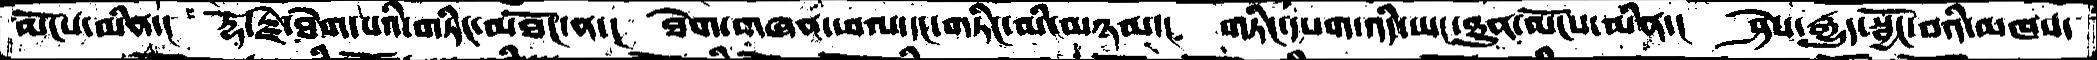མོངས་མིན་།  རྡོ་རྗེ་ཐེག་པའི་གཏིང་མཐོང་ན་།  ཐེག་གཞན་ཕལ་དང་གཏིང་མི་མཉམ་།  གཏིང་དཔག་འདི་ཡང་ཐུན་མོངས་མིན་།  ཤེས་རྒྱུད་སྦྱོང་བའི་མཁས་
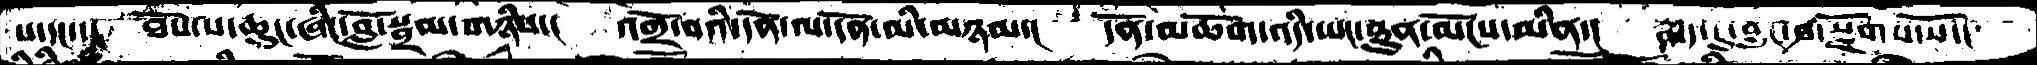པ་དང་་།  ཐོས་པ་ཆུང་ཞིང་བློ་སྦྲམ་གཉིས་།  འགྲོ་བའི་དོན་ལ་དོན་མི་མཉམ་།  དོན་མཆོག་འདི་ཡང་ཐུན་མོངས་མིན་།  རྨད་དུ་བྱུང་བ་སྫོགས་སོ་།
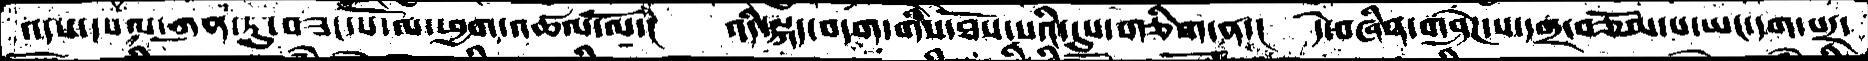འདས་དཔལ་ཀུན་ཏུ་བཟང་པོ་ལ་ཕྱག་འཚལ་ལོ་།  འདི་སྐད་བདག་གིས་ཐོས་པའི་དུས་གཅིག་ན་། དེ་བཞིན་གཤེགས་པ་དགྲ་བཅོམ་པ་ཡང་དག་པར་
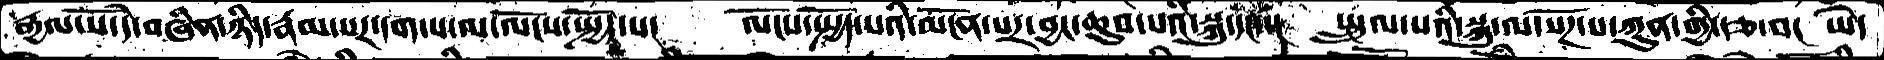རྒྱལ་པོ་དེ་བཞིན་ཉིད་རྣམ་པར་དག་པ་ལ་ལོངས་སྤྱོད་པ།  ལོངས་སྤྱོད་པའི་མངོན་པར་བྱང་ཆུབ་པའི་སྐུ་དང་་།  སྤྲུལ་པའི་སྐུ་ལ་སོཌ་པ་ཀུན་གྱི་རྩ་བ་།  ཡེ་
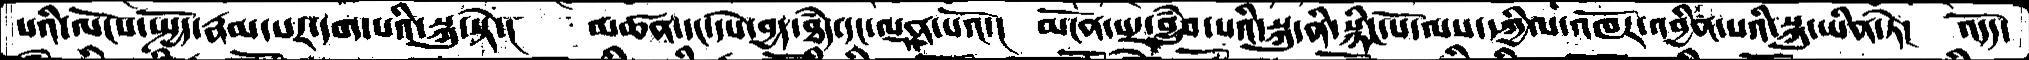པའི་ལོངས་སྤྱོད་རྣམ་པར་དག་པའི་སྐུ་སྟེ་།  མཚན་དང་དཔེ་བྱད་ཐཾད་དང་ལྡན་པའོ་།  མངོན་པར་བྱུཾབ་པའི་སྐུ་ནི་སྙིང་པོ་ལས་དཀྱིལ་འཁོར་འབྱིན་པའི་སྐུ་ཡིན་ཏེ་།  འདོད་
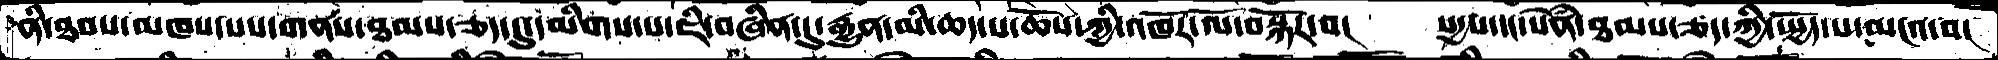ནི་ཐབས་མཁས་པས་གནས་ཐམས་ཅད་དུ་དམིགས་པ་ཇི་བཞིན་དུ་རྒྱུན་མི་ཆད་པ་ཆོས་ཀྱི་འཁོར་ལོ་བསྐོར་བ་།  སདྱས་དང་སེཾན་ཐམས་ཅད་ཀྱི་སྤྱོད་པ་མངའ་བ།
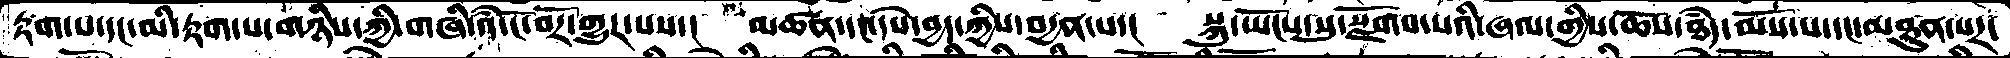རྟག་པ་དང་མི་རྟག་པ་གཉིས་ཀྱི་གཞི་འཾ་ངོ་བོར་གྱུར་པས་།  མཚན་དང་དཔེ་བྱད་ཀྱིས་བདྱན་པ་།  སྐུ་ཡོངས་སུ་སྫོགས་པའི་ཞལ་གྱིས་ཆོས་ཐཾད་མོས་པ་དང་མཐུན་པར་
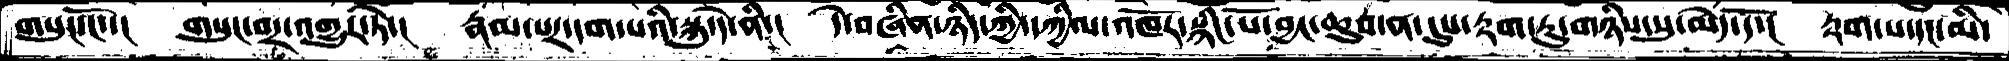གསུང་ངོ་་།  གསུང་བར་འགྱུར་ཏེ་།  རྣམ་པར་དག་པའི་སྐུ་དེ་ནི་  དེ་བཞིན་ཉིད་ཀྱི་དཀྱིལ་འཁོར་སྙིང་པོ་བྱང་ཆུབ་ན་དུས་རྟག་ཏུ་གཉིས་སུ་མེད་དོ་།  རྟག་པ་དང་མི་
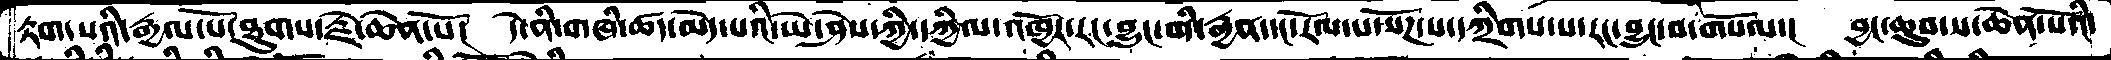རྟག་པའི་རྒྱལ་པོ་ཐུགས་རྗེ་ཆེན་པོ་།  དེ་ནི་གཞི་ཚད་མེད་པའི་ཡེ་ཤེས་ཀྱི་དཀྱིལ་འཁྱོར་རང་བྱུང་གི་རྒྱན་དང་རོལ་པ་སོཌ་པ་དཀྲིགས་པ་རང་བྱུང་བ་གསོལ་།  བྱང་ཆུབ་པ་ཆེན་པོའི་
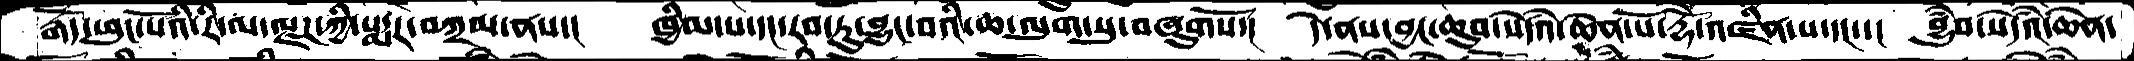རྒོད་ཕུང་པོའི་རི་ལ་ལྗཌ་ཀྱི་པདྨར་བཀྲམ་ནས་།  ཁྱིམ་པ་དང་རབ་ཏུ་བྱུང་བའི་ཆ་ལུག་སུ་བཞུགསོ་།  དེ་ནས་བྱང་ཆུབ་སེདཾའ་ཆེན་པོ་རྡོེ་འཛིན་པ་དང་་།  བྱུཾབ་སེདཾའ་ཆེན་
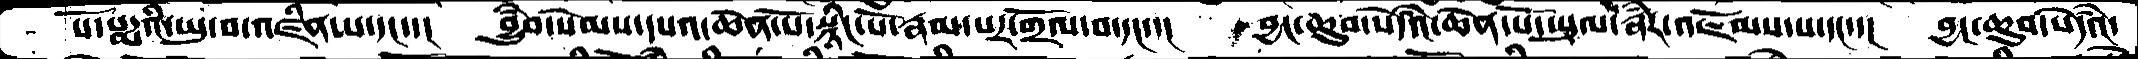པོ་པདྨའི་ཡུ་བ་འཛིན་པ་དང་་།  བྱུཾབ་སེམས་དཔའ་ཆེན་པོ་སྙིང་པོ་རྣམ་པར་གྲོལ་བ་དང་་།  བྱང་ཆུབ་སེདཾའ་ཆེན་པོ་ཡུལ་རྣཾར་འཇོམས་པ་དང་་།  བྱང་ཆུབ་སེདཾའ་
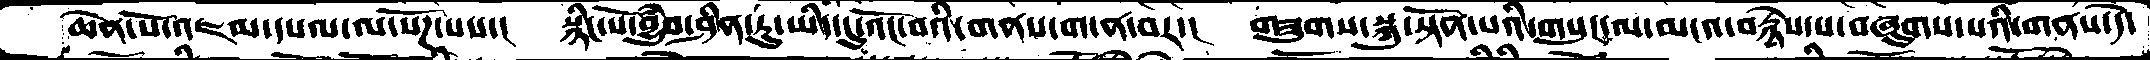ཆེན་པོ་འཇམ་དཔལ་ལ་སོཌ་པས་།  སྙིང་པོ་བྱུཾབ་ཤིན་ཏུ་ཡིད་དུ་འོང་བའི་གནས་ག་ན་བར་།  གཟུགས་སྐུ་སྟོན་པའི་གསུང་ལ་མངའ་བརྙེས་པ་བཞུགས་པའི་གནས་དེ་
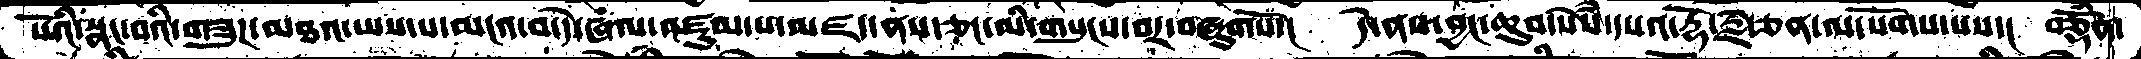པོའི་སྣང་བའི་གཟུཌ་མཐའ་ཡས་པ་མངའ་བ་དེ་ཞལ་འཛུམ་པ་མཛད་ནས་ཅང་མི་གསུངས་བར་བཞུགསོ་།  དེ་ནས་བྱང་ཆུབ་སེསཾ་དཔའ་རྡོ་རྗེ་ཅན་ལ་སོགས་པས་།  བཅྡོཾན་
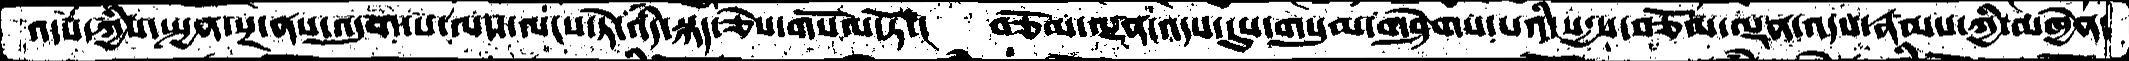འདས་ཀྱིས་སྤྱན་སྔ་ནས་འདུག་པ་ལས་ལངས་ཏེ་འདི་སྐད་ཅེས་གསོལ་ཏོ་།  བཅོམ་ལྡན་འདས་དུས་གསུམ་གཤེགས་པའི་སདྱས་བཅོམ་ལྡན་འདས་རྣམས་ཀྱི་མཁྱེན་
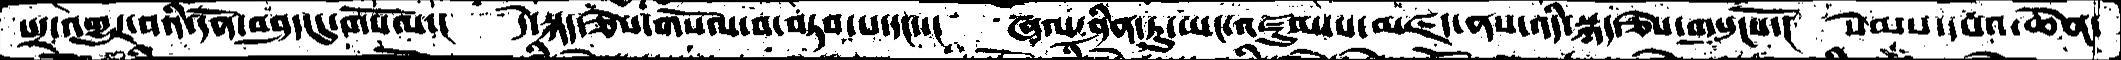པར་འགྱུར་བའི་དོན་བཤད་དུ་གསོལ་།  དེ་སྐད་ཅེས་གསོལ་བ་བཏབ་པ་དང་་།  ཞལ་ཤིན་ཏུ་ཡང་འཛུམ་པ་མཛད་ནས་འདི་སྐད་ཅེས་གསུངསོ་།  སེམས་དཔའ་ཆེན་
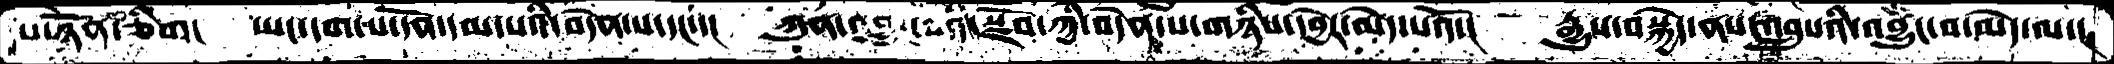པ་ཉོན་ཅིག།  ཡང་དག་པ་དོན་དམ་པའི་བདེན་པ་དང་་།  ཀུན་འབྱུང་པའི་སྫོབ་ཀྱི་བདེན་པ་གཉིས་དབྱེར་མེད་པའོ་།  རྒྱུས་བསྐྱེད་ནས་འབྲུསའི་འབྱུང་བ་མེད་ལ་།
